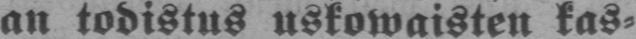an todistus uskowaisten kas-
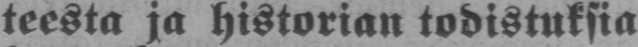teesta ja historian todistuksia
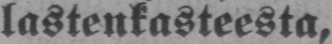lastenkasteesta,
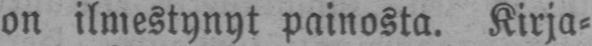on ilmestynyt painosta. Kirja-
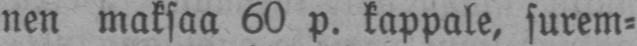nen maksaa 60 p. kappale, surem-
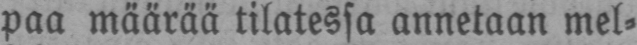paa määrää tilatessa annetaan mel-
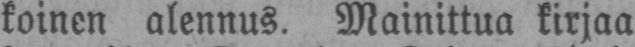koinen alennus. Mainittua kirjaa
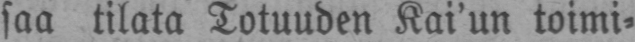saa tilata Totuuden Kai'un toimi-
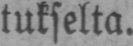tukselta.
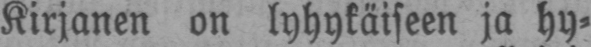Kirjanen on lyhykäiseen ja hy-
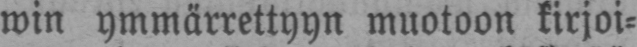win ymmärrettyyn muotoon kirjoi-
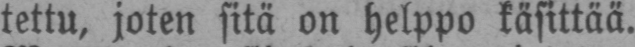tettu, joten sitä on helppo käsittää.
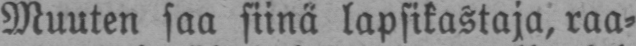Muuten saa siinä lapsikastaja, raa-
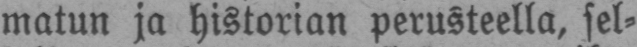matun ja historian perusteella, sel-
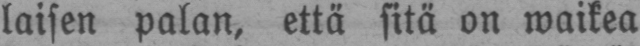laisen palan, että sitä on waikea
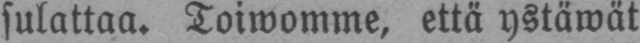sulattaa. Toiwomme, että ystäwät
